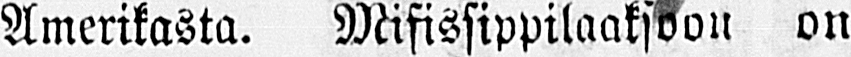Amerikasta. Mifissippilaaksoon on
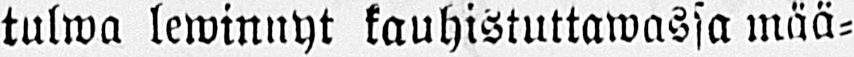tulwa lewiennyt kauhistuttawassa mää-
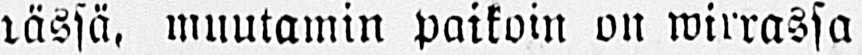rässä, muutamin paikoin on wirrassa
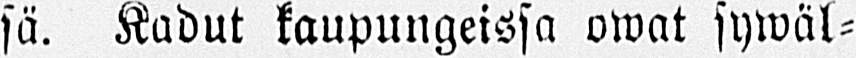sä. Kadut kaupungeissa owat sywäl-
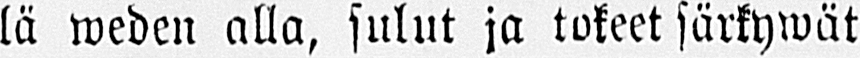lä weden alla, sulut ja tokeet särkywät
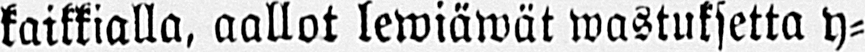kaikkialla, aallot lewiäwät wastuksetta y-
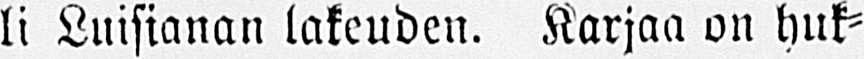li Luisianan lakeuden. Karjaa on huk-
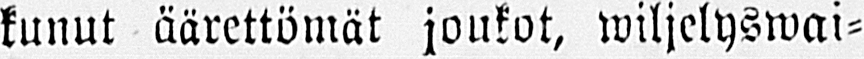kunut äärettömät joukot, wiljelyswai-
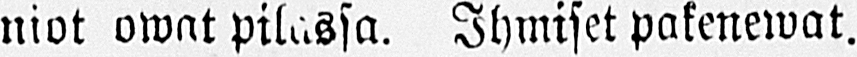niot owat pilassa. Ihmiset pakenewat.
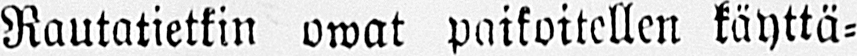Rautatietkin owat paikoitellen käyttä-
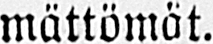mättömät.
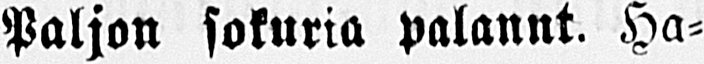-Paljon sokuria palannt. Ha-
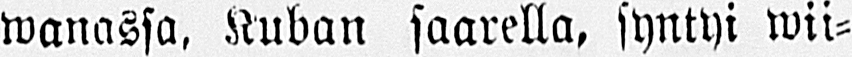wanassa, Kuban saarella, syntyi wii-
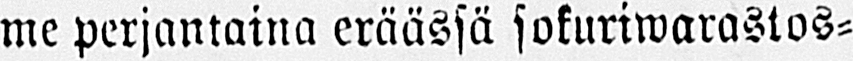me perjantaina eräässä sokuriwarastos-
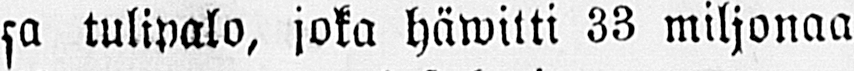sa tulipalo, joka häwitti 33 miljonaa
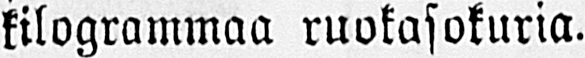kilogrammaa ruokasokuria.
